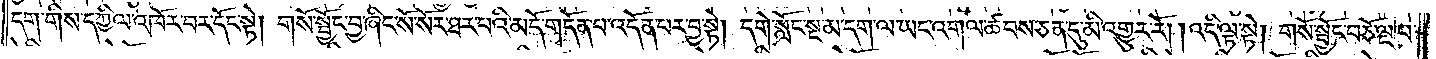དག་གིས་དཀྱིལ་འཁོར་བར་དོང་སྟེ། གསོ་སྦྱོང་བྱ་ཞིང་སོ་སོར་ཐར་པའི་མདོ་གདོན་པ་འདོན་པར་བྱ་སྟེ། དགེ་སློང་སྔ་མ་དག་ལ་ཡང་འགལ་ཚབས་ཅན་དུ་མི་འགྱུར་རོ། །འདི་ལྟ་སྟེ། གསོ་སྦྱོང་བཅོ་ལྔ་པ་
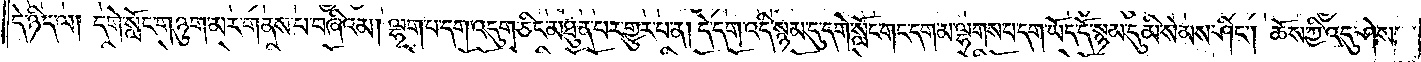དེ་ཉིད་ལ། དགེ་སློང་གཉུག་མར་གནས་པ་བཞིའམ། ལྷག་པ་དག་འདུག་ཅིང་མཐུན་པར་གྱུར་པ་ན། དེ་དག་འདི་སྙམ་དུ་དགེ་སློང་གང་དག་མ་ལྷགས་པ་དག་ཡོད་དོ་སྙམ་དུ་མི་སེམས་ཤིང༌། ཆོས་ཀྱི་འདུ་ཤེས་
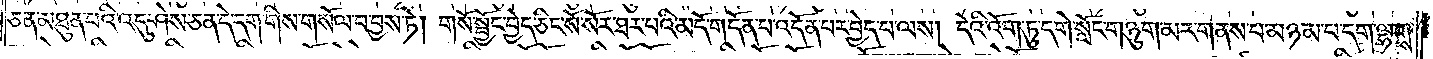ཅན་མཐུན་པའི་འདུ་ཤེས་ཅན་དེ་དག་གིས་གསོལ་བ་བྱས་ཏེ། གསོ་སྦྱོང་བྱེད་ཅིང་སོ་སོར་ཐར་པའི་མདོ་གདོན་པ་འདོན་པར་བྱེད་པ་ལས། དེའི་འོག་ཏུ་དགེ་སློང་གཉུག་མར་གནས་པ་མཉམ་པ་དག་ལྷགས་
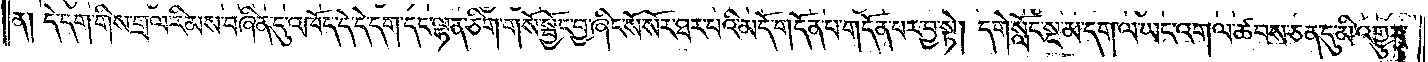ན། དེ་དག་གིས་གྲལ་རིམས་བཞིན་དུ་འཁོད་དེ་དེ་དག་དང་ལྷན་ཅིག་གསོ་སྦྱོང་བྱ་ཞིང་སོ་སོར་ཐར་པའི་མདོ་གདོན་པ་གདོན་པར་བྱ་སྟེ། དགེ་སློང་སྔ་མ་དག་ལ་ཡང་འགལ་ཚབས་ཅན་དུ་མི་འགྱུར་
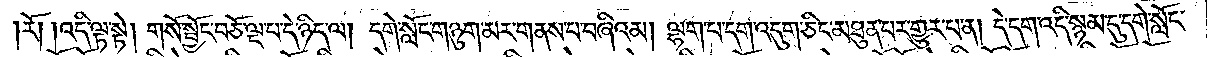རོ། །འདི་ལྟ་སྟེ། གསོ་སྦྱོང་བཅོ་ལྔ་པ་དེ་ཉིད་ལ། དགེ་སློང་གཉུག་མར་གནས་པ་བཞིའམ། ལྷག་པ་དག་འདུག་ཅིང་མཐུན་པར་གྱུར་པ་ན། དེ་དག་འདི་སྙམ་དུ་དགེ་སློང་
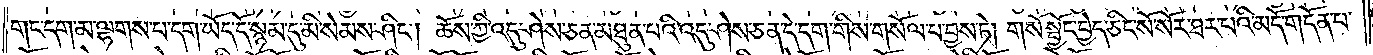གང་དག་མ་ལྷགས་པ་དག་ཡོད་དོ་སྙམ་དུ་མི་སེམས་ཤིང༌། ཆོས་ཀྱི་འདུ་ཤེས་ཅན་མཐུན་པའི་འདུ་ཤེས་ཅན་དེ་དག་གིས་གསོལ་པ་བྱས་ཏེ། གསོ་སྦྱོང་བྱེད་ཅིང་སོ་སོར་ཐར་པའི་མདོ་གདོན་པ་
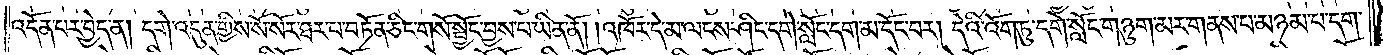འདོན་པར་བྱེད་ན། དགེ་འདུན་གྱིས་སོ་སོར་ཐར་པ་བཏོན་ཅིང་གསོ་སྦྱོང་བྱས་པ་ཡིན་ནོ། །འཁོར་དེ་མ་ལངས་ཤིང་དགེ་སློང་དག་མ་དོང་བར། དེའི་འོག་ཏུ་དགེ་སློང་གཉུག་མར་གནས་པ་མཉམ་པ་དག་
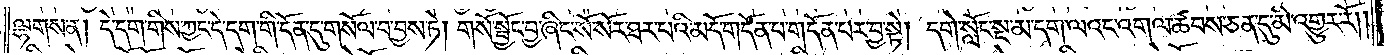ལྷགས་ན། དེ་དག་གིས་ཀྱང་དེ་དག་གི་དོན་དུ་གསོལ་བ་བྱས་ཏེ། གསོ་སྦྱོང་བྱ་ཞིང་སོ་སོར་ཐར་པའི་མདོ་གདོན་པ་གདོན་པར་བྱ་སྟེ། དགེ་སློང་སྔ་མ་དག་ལའང་འགལ་ཚབས་ཅན་དུ་མི་འགྱུར་རོ། །
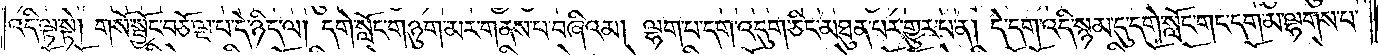འདི་ལྟ་སྟེ། གསོ་སྦྱོང་བཅོ་ལྔ་པ་དེ་ཉིད་ལ། དགེ་སློང་གཉུག་མར་གནས་པ་བཞིའམ། ལྷག་པ་དག་འདུག་ཅིང་མཐུན་པར་གྱུར་པ་ན། དེ་དག་འདི་སྙམ་དུ་དགེ་སློང་གང་དག་མ་ལྷགས་པ་
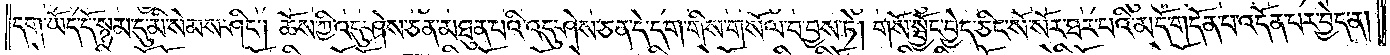དག་ཡོད་དོ་སྙམ་དུ་མི་སེམས་ཤིང༌། ཆོས་ཀྱི་འདུ་ཤེས་ཅན་མཐུན་པའི་འདུ་ཤེས་ཅན་དེ་དག་གིས་གསོལ་བ་བྱས་ཏེ། གསོ་སྦྱོང་བྱེད་ཅིང་སོ་སོར་ཐར་པའི་མདོ་གདོན་པ་འདོན་པར་བྱེད་ན།
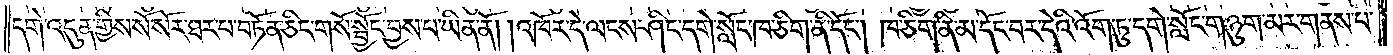དགེ་འདུན་གྱིས་སོ་སོར་ཐར་པ་བཏོན་ཅིང་གསོ་སྦྱོང་བྱས་པ་ཡིན་ནོ། །འཁོར་དེ་ལངས་ཤིང་དགེ་སློང་ཁ་ཅིག་ནི་དོང༌། ཁ་ཅིག་ནི་མ་དོང་བར་དེའི་འོག་ཏུ་དགེ་སློང་གཉུག་མར་གནས་པ་
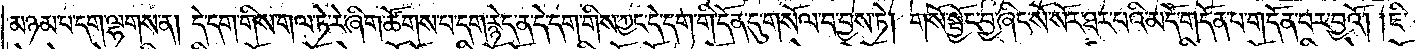མཉམ་པ་དག་ལྷགས་ན། དེ་དག་གིས་གལ་ཏེ་རེ་ཞིག་ཚོགས་པ་དག་རྙེད་ན་དེ་དག་གིས་ཀྱང་དེ་དག་གི་དོན་དུ་གསོལ་བ་བྱས་ཏེ། གསོ་སྦྱོང་བྱ་ཞིང་སོ་སོར་ཐར་པའི་མདོ་གདོན་པ་གདོན་པར་བྱའོ། །ཇི་
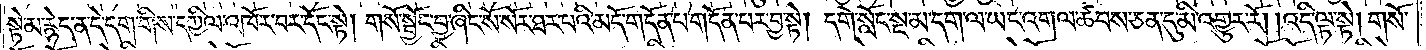སྟེ་མ་རྙེད་ན་དེ་དག་གིས་དཀྱིལ་འཁོར་བར་དོང་སྟེ། གསོ་སྦྱོང་བྱ་ཞིང་སོ་སོར་ཐར་པའི་མདོ་གདོན་པ་གདོན་པར་བྱ་སྟེ། དགེ་སློང་སྔ་མ་དག་ལ་ཡང་འགལ་ཚབས་ཅན་དུ་མི་འགྱུར་རོ། །འདི་ལྟ་སྟེ། གསོ་
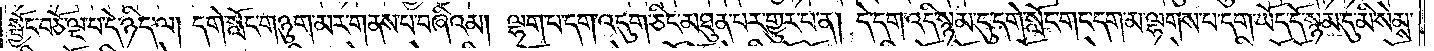སྦྱོང་བཅོ་ལྔ་པ་དེ་ཉིད་ལ། དགེ་སློང་གཉུག་མར་གནས་པ་བཞིའམ། ལྷག་པ་དག་འདུག་ཅིང་མཐུན་པར་གྱུར་པ་ན། དེ་དག་འདི་སྙམ་དུ་དགེ་སློང་གང་དག་མ་ལྷགས་པ་དག་ཡོད་དོ་སྙམ་དུ་མི་སེམས་
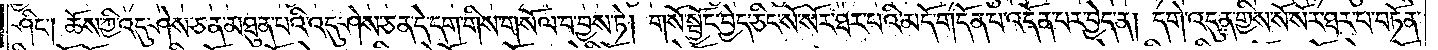ཤིང༌། ཆོས་ཀྱི་འདུ་ཤེས་ཅན་མཐུན་པའི་འདུ་ཤེས་ཅན་དེ་དག་གིས་གསོལ་བ་བྱས་ཏེ། གསོ་སྦྱོང་བྱེད་ཅིང་སོ་སོར་ཐར་པའི་མདོ་གདོན་པ་འདོན་པར་བྱེད་ན། དགེ་འདུན་གྱིས་སོ་སོར་ཐར་པ་བཏོན་
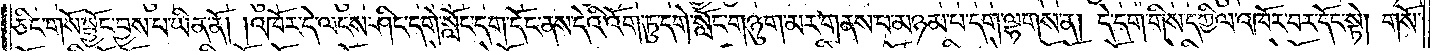ཅིང་གསོ་སྦྱོང་བྱས་པ་ཡིན་ནོ། །འཁོར་དེ་ལངས་ཤིང་དགེ་སློང་དག་དོང་ནས་དེའི་འོག་ཏུ་དགེ་སློང་གཉུག་མར་གནས་པ་མཉམ་པ་དག་ལྷགས་ན། དེ་དག་གིས་དཀྱིལ་འཁོར་བར་དོང་སྟེ། གསོ་
